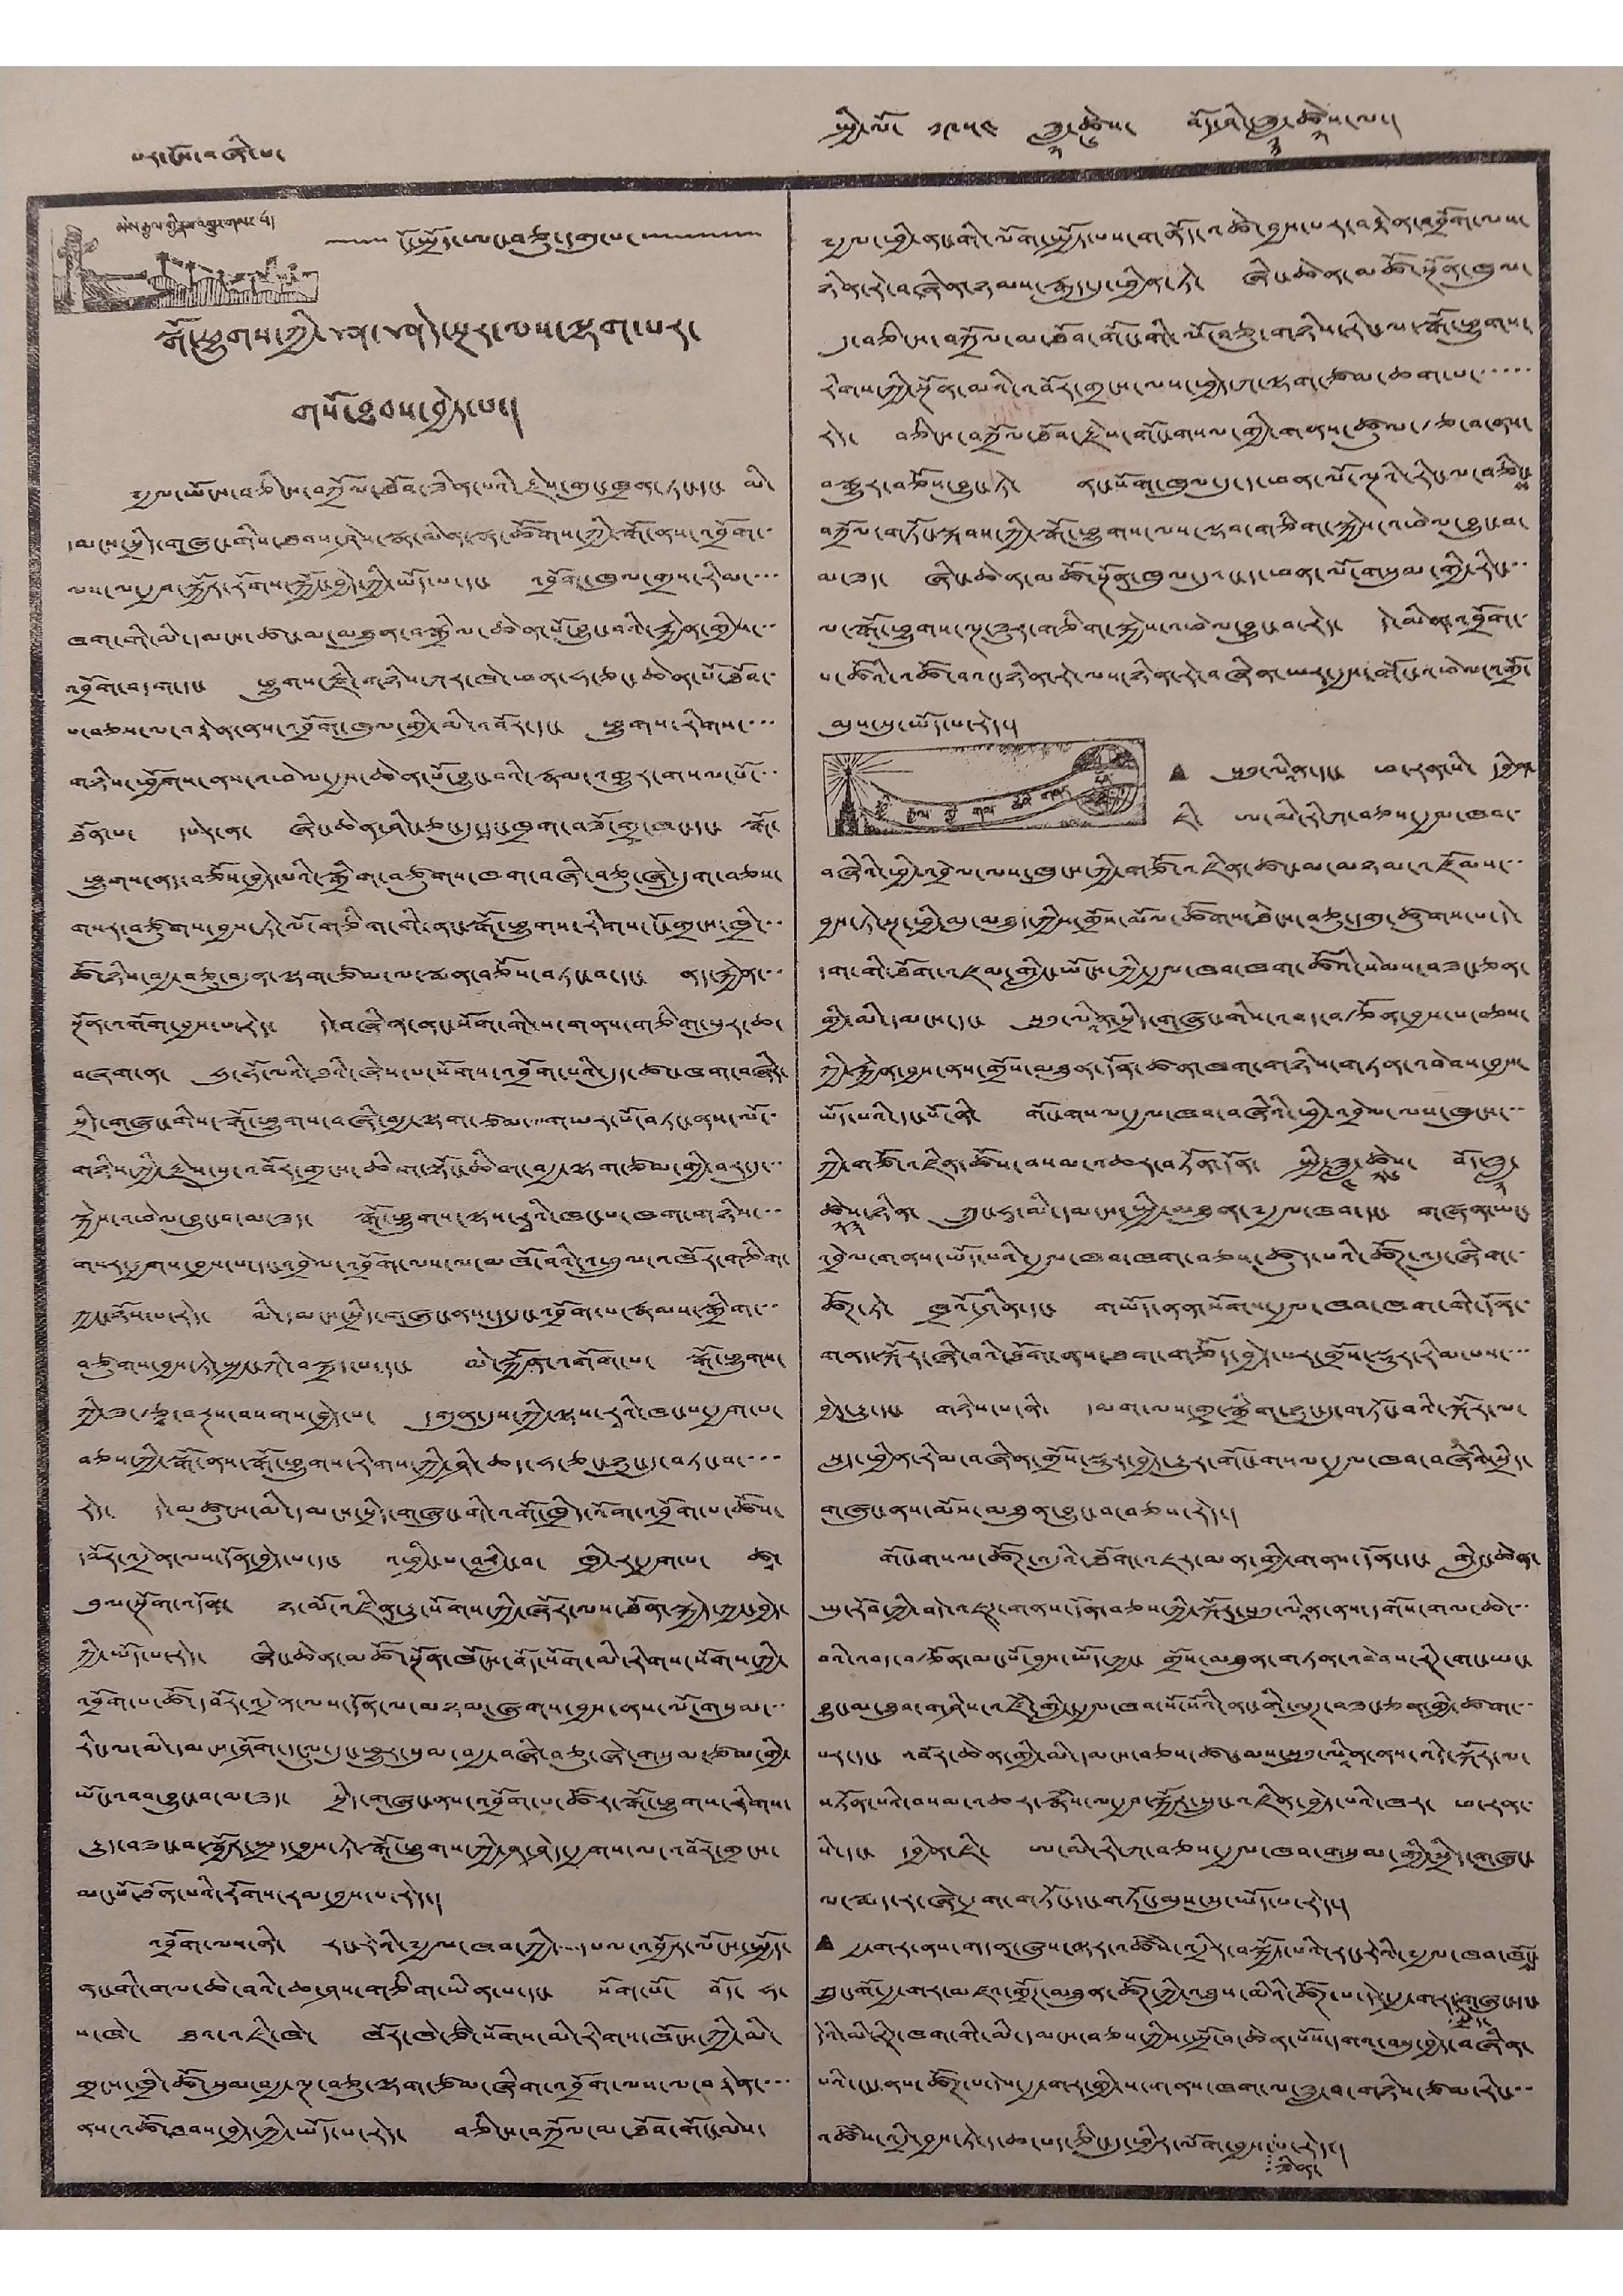པར་ངོས་བཞི་པ་ སྤྱི་ལོ་ ༡༩༤༥ ཟླ་
༢
ཚེས་
༦
བོད་ཤིང་ཟླ་
༡༡
ཚེས་
༢
ལ་།
མེས་རྒྱལ་གྱི་རྣམ་འགྱུར་གསར་པ་
ངོ་སྤྲོད་ཨང་བཅུ་དགུ་པ་
སྒོ་ཕྱུགས་ཀྱི་ཤ་ཤེད་སྔར་ལས་ལྷག་པར་
གསོ་ཐབས་བྱེད་པ་།
༸རྒྱལ་ཡོངས་བཅིངས་བཀྲོལ་ཐོབ་ཟིན་པའི་རྗེས་གུང་ཁྲན་ཏང་དང་ མི་
དམངས་སྲིད་གཞུང་གིས་ཐབས་ཤེས་སྣ་མིན་སྣ་ཚོགས་ཀྱི་སྒོ་ནས་འབྲོག་་
ལས་ལ་རྒྱབ་སྐྱོར་རོགས་སྐྱོང་བྱེད་ཀྱི་ཡོད་པ་དང་ འབྲོག་ཁུལ་གྲས་རིམ་་་་
ཁག་གི་མི་དམངས་ཚང་མ་མཐུན་བསྒྲིལ་ཆེན་པོ་བྱུང་བའི་རྐྱེན་གྱིས་་་
འབྲོག་བདག་དང་ ཕྱུགས་རྫི་གཉིས་ཀར་ཁེ་ཕན་ཧ་ཅང་ཆེན་པོ་ཐོབ་
པ་བཅས་ལ་བརྟེན་ནས་འབྲོག་ཁུལ་གྱི་མི་འབོར་དང་ ཕྱུགས་རིགས་་་་
གཉིས་ཕྱོགས་ནས་འཕེལ་རྒྱས་ཆེན་པོ་བྱུང་བའི་རྣམ་འགྱུར་གསལ་པོ་་་
ཐོན་པ་ དཔེར་ན་ ཞིང་ཆེན་ཤིང་ཅང་དུ་དང་ཁྲག་བཟོ་གྲྭ་ཁང་དང་ སྒོ་
ཕྱུགས་ནད་བཅོས་བྱེད་པའི་སྒྲིག་བཙུགས་ཁག་བཞི་བཅུ་ཞེ་དྲུག་བཅས་
གསར་བཙུགས་བྱས་ཏེ་ལོ་གཅིག་གི་ནང་སྒོ་ཕྱུགས་རིགས་ངོ་གྲངས་ཁྲི་་་
ཚོ་ཉིས་བརྒྱ་བཅུ་བདུན་ལྷག་ཙམ་ལ་སྨན་བཅོས་བཏང་བ་དང་ ནད་རྐྱེན་་་
སྔོན་འགོག་བྱས་པ་རེད་ དེ་བཞིན་ནང་སོག་གི་ས་གནས་གཅིག་པུར་ཆ་
བཞག་ན་ ཧུ་ཧོ་ལའི་ཐའི་ཞེས་པ་སོགས་འབྲོག་པའི་དུད་ཚང་ཁག་བཞིར་
སྲིད་གཞུང་གིས་སྒོ་ཕྱུགས་བཞི་བརྒྱ་ལྷག་ཙམ་གཡར་པོ་བཏང་ནས་ལོ་
གཉིས་ཀྱི་རྗེས་སུ་འབོར་གྲངས་ཆིག་སྟོང་ཆིག་བརྒྱ་ལྷག་ཙམ་གྱི་བར་དུ་་་
སྐྱེས་འཕེལ་བྱུང་བ་མ་ཟད་ སྒོ་ཕྱུགས་ལྷས་རྭའི་ཁང་པ་ཁག་གཉིས་་་
གསར་རྒྱགས་བྱས་པ་དང་འབྲེལ་འབྲོག་ལས་ལ་མཁོ་བའི་འཕྲུལ་འཁོར་གཅིག་
ཀྱང་ཉོས་པ་རེད་ མི་དམངས་སྲིད་གཞུང་ནས་ད་དུང་འབྲོག་པ་རྣམས་སྒྲིག་་་
བཙུགས་བྱས་ཏེ་སྤྱང་ཀི་བསྐྲད་པ་དང་ མེ་སྐྱོན་འགོག་པ་ སྒོ་ཕྱུགས་
ཀྱི་ཟ་རྩྭ་བརྔས་བསགས་བྱེད་པ་ དགུན་དུས་ཀྱི་ལྷས་རྭའི་ཁང་པ་རྒྱག་པ་
བཅས་ཀྱི་སྒོ་ནས་སྒོ་ཕྱུགས་རིགས་ཀྱི་ཤི་ཆད་ཧ་ཅང་ཉུང་དུ་བཏང་བ་་་་
རེད་ དེ་མཚུངས་མི་དམངས་སྲིད་གཞུང་གི་འགོ་ཁྲིད་འོག་འབྲོག་པ་ཚོས་
དབོར་འདྲེན་ལས་དོན་བྱེད་པ་དང་ འཕྱིང་པ་བརླིང་བ་ ཁྱི་ར་རྒྱག་པ་ ཚ་
བུལ་སྔོན་འདོན་ ཉ་མོ་འཛིན་རྒྱུ་སོགས་ཀྱི་ཞོར་ལས་ཐོན་སྐྱེད་ཀྱང་བྱེད་
ཀྱི་ཡོད་པ་རེད་ ཞིང་ཆེན་མཚོ་སྔོན་ཁོངས་བོད་སོག་མི་རིགས་སོགས་ཀྱི་
འབྲོག་པ་ཚོ་དབོར་འདྲེན་ལས་དོན་ལ་མཉམ་ཞུགས་བྱས་ནས་ལོ་གསུམ་་་
རིང་ལ་མི་དམངས་ཤོག་དངུལ་དུང་ཕྱུར་སུམ་བརྒྱ་བཞི་བཅུ་ཞེ་གསུམ་ཙམ་གྱི་
ཡོང་འབབ་བྱུང་བ་མ་ཟད་ སྲིད་གཞུང་ནས་འབྲོག་པ་ཚོར་སྒོ་ཕྱུགས་རིགས་
རྒྱུད་བཟང་བ་སྦྱོར་སྤྲད་བྱས་ཏེ་སྒོ་ཕྱུགས་ཀྱི་ཤ་ཤེད་རྒྱགས་ལ་འབོར་གྲངས་
མང་པོ་ཐོན་པའི་རོགས་རམ་བྱས་པ་རེད་།
འབྲོག་ལས་ནི་ རང་རེའི་༸རྒྱལ་ཁབ་ཀྱི་དཔལ་འབྱོར་ལོངས་སྤྱོད་
ནང་གི་གལ་ཆེ་བའི་ཆ་ཤས་གཅིག་ཡིན་པ་དང་ སོག་པོ་ བོད་ ཧ་
པ་ཁེ་ ཐའ་འཇི་ཁེ་ ཁོར་ཁེ་ཙེ་སོགས་མི་རིགས་ཁོངས་ཀྱི་མི་
གྲངས་ཁྲི་ཚོ་སུམ་བརྒྱ་ལྔ་བཅུ་ལྷག་ཙམ་ཞིག་འབྲོག་ལས་ལ་བརྟེན་་་་
ནས་འཐོ་ཐབས་བྱེད་ཀྱི་ཡོད་པ་རེད་ བཅིངས་བཀྲོལ་མ་ཐོབ་གོང་མེས་
༸རྒྱལ་ཕྱི་ནང་གི་ལོག་སྤྱོད་པས་གནོད་འཚེ་བྱས་པར་བརྟེན་འབྲོག་ལས་
ཉིན་རེ་བཞིན་ཉམས་རྒུད་དུ་ཕྱིན་ཏེ་ ཞིང་ཆེན་མཚོ་སྔོན་ཁུལ་
དུ་བཅིངས་བཀྲོལ་མ་ཐོབ་གོང་གི་ལོ་བཅུ་གཉིས་རིང་ལ་སྒོ་ཕྱུགས་
རིགས་ཀྱི་སྔོན་མའི་འབོར་གྲངས་ལས་ཕྱེད་ཀ་ལྷག་ཙམ་ཆག་པ་་་་་་
རེད་ བཅིངས་བཀྲོལ་ཐོབ་རྗེས་གོང་གསལ་གྱི་གནས་ཚུལ་རྩ་བ་ནས་
བསྒྱུར་བཅོས་བྱུང་ཏེ་ ནང་སོག་ཁུལ་དུ་ད་ཕན་ལོ་ལྔའི་རིང་ལ་བཅིང་
ས
བཀྲོལ་གཏོང་སྐབས་ཀྱི་སྒོ་ཕྱུགས་ལས་ལྡབ་གཅིག་སྐྱེས་འཕེལ་བྱུང་བ་
མ་ཟད་ ཞིང་ཆེན་མཚོ་སྔོན་ཁུལ་དུའང་ད་ཕན་ལོ་གསུམ་གྱི་རིང་་་
ལ་སྒོ་ཕྱུགས་ལྔ་ཟུར་གཅིག་སྐྱེས་འཕེལ་བྱུང་བ་རེད་ དེ་མིན་འབྲོག་
པ་ཚོའི་འཚོ་བའང་ཉིན་རེ་ལས་ཉིན་རེ་བཞིན་ཡར་རྒྱས་གོང་འཕེལ་འགྲོ་
མུས་སུ་ཡོད་པ་རེད་།
ཕྱི་རྒྱལ་གྱི་གལ་ཆེའི་གནད་དོན་
• སུའུ་ལཱིན་དང་ ཕ་རན་སི་ དབྱིན་
ཇི་ ཨ་མི་རི་ཀ་བཅས་རྒྱལ་ཁབ་
བཞིའི་ཕྱི་འབྲེལ་ལས་ཁུངས་ཀྱི་གཙོ་འཛིན་ཚང་མ་མཉམ་འཛོམས་་་
བྱས་ཏེ་སྔ་ཕྱི་མུ་མཐུད་ཀྱིས་གྲོས་མོལ་ཚོགས་ཐེངས་བཅུ་དགུ་ཚུགས་པ་དེ་
དག་གི་ཐོག་འཛམ་གླིང་ཡོངས་ཀྱི་རྒྱལ་ཁབ་ཁག་ཚོའི་སེམས་བཟང་ཅན་
གྱི་མི་དམངས་དང་ སུའུ་ལཱིན་སྲིད་གཞུང་གིས་འབད་བརྩོན་བྱས་པ་བཅས་
ཀྱི་རྐྱེན་བྱས་ནས་གྲོས་མཐུན་དོན་ཚན་ཁག་གཉིས་གཏན་འབེབས་བྱས་
ཡོད་པའི་དང་པོ་ནི་ གོང་གསལ་རྒྱལ་ཁབ་བཞིའི་ཕྱི་འབྲེལ་ལས་ཁུངས་་་
ཀྱི་གཙོ་འཛིན་ཚོས་བསམ་འཆར་བཏོན་དོན་ སྤྱི་ཟླ་
༤
ཚེས་
༢༦
བོད་ཟླ་
༢
ཚེས་
༢༣
ཉིན་ ཀྲུང་ཧྭ་མི་དམངས་སྤྱི་མཐུན་༸རྒྱལ་ཁབ་དང་ གཞན་ཡང་
འབྲེལ་གནས་ཡོད་པའི་རྒྱལ་ཁབ་ཁག་བཅས་ཚུད་པའི་ཚོཊ་འདུ་ཞིག་་
ཚོཊ་ཏེ་ ཁྲའོ་ཤིན་དང་ གཡོད་ནན་སོག་རྒྱལ་ཁབ་ཁག་གི་དོན་་
གནད་སྐོར་ཞི་བའི་ཐོག་ནས་ཐག་གཅོད་བྱེད་པར་གྲོས་སྡུར་རིམ་པས་་་་
བྱེད་རྒྱུ་དང་ གཉིས་པ་ནི་ དམག་ལས་གྲྭ་སྒྲིག་ཉུང་དུ་གཏོང་བའི་སྐོར་ལ་
སླད་ཕྱིན་རིམ་བཞིན་གྲོས་སྡུར་བྱེད་རྒྱུར་གོང་གསལ་རྒྱལ་ཁབ་བཞིའི་སྲིད་
གཞུང་ནས་མོས་མཐུན་བྱུང་བ་བཅས་རེད་།
གོང་གསལ་ཚོཊ་འདུའི་ཐོག་འཇར་མན་གྱི་གནས་དོན་དང་ གླིང་ཆེན་
ཨུ་རོབ་ཀྱི་བདེ་འཇཊ་གནས་དོན་བཅས་ཀྱི་སྐོར་སུའུ་ལཱིན་ནས་དགོས་གལ་ཆེ་་་
བའི་འབད་བརྩོན་མང་པོ་བྱས་ཡོད་ཀྱང་ གྲོས་མཐུན་གཏན་འབེབས་རིཊ་གང་ཡང་
བྱུང་མ་ཐུབ་གཤིས་འཛཾ་གླིང་རྒྱལ་ཁབ་སོ་སོའི་ནང་གི་ལུཊ་བཟང་ཅན་གྱི་ཚག་་་
པར་དང་ འབོར་ཆེན་གྱི་མི་དམངས་བཅས་ཚང་མས་སུའུ་ལཱིན་ནས་འདི་སྐོར་ལ་
བཏོན་པའི་བསམ་འཆར་རྣཾས་ལ་རྒྱབ་སྐྱོར་སྲུང་འཛིན་བྱེད་པའི་ཁར་ ཕ་རན་
སི་དང་ དབྱིན་ཇི་ ཨ་མི་རི་ཀ་བཅས་རྒྱལ་ཁབ་གསུམ་གྱི་སྲིད་གཞུང་
ལ་སྨད་ར་ཞེ་དྲག་གཏོང་དང་གཏོང་མུས་སུ་ཡོད་པ་རེད་།
• རྒྱ་གར་ནས་གདན་ཞུས་ལྟར་འཚཾས་འདྲིར་བསྐྱོད་པའི་རང་རེའི་༸རྒྱལ་ཁབ་ཁོངས་
ཀྲུང་གོ་རྒྱ་གར་མཛའ་གྲོཊ་མཐུན་ཚོཊ་ཀྱི་འཐུས་མིའི་ཚོཊ་པ་དེར་རྒྱ་གར་
སྲིད་
གཞུང་དང་
དེའི་མི་རིཊ་ཁག་གི་མི་དམངས་བཅས་ཀྱིས་སྤྲོ་བ་ཆེན་པོས་དགའ་བསུ་བྱེད་བཞིན་
པའི་ནང་ནས་ཚོཊ་པ་དེས་རྒྱ་གར་གྱི་ས་གནས་ཁག་ལ་ཟླ་བ་གཉིས་ཙམ་རིང་་་
འཚཾས་འདྲི་བྱས་ཏེ་ད་ཆ་པད་ཅིང་དུ་ཕྱིར་ལོག་བྱ་
ཟིན་
པ་རེད་།
